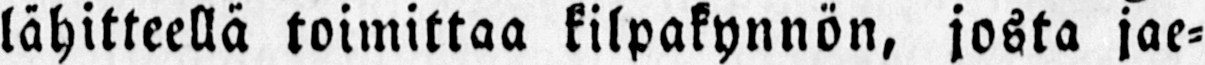lähitteellä toimittaa kilpakynnön, josta jae-
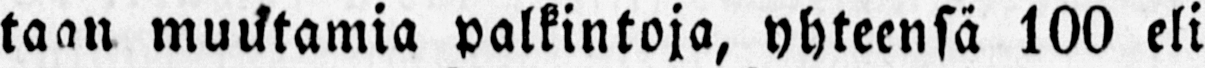taan muutamia palkintoja, yhteensä 100 eli
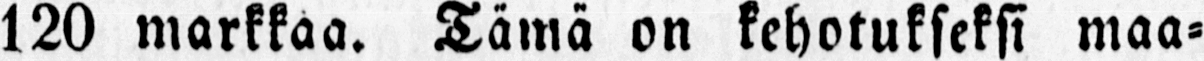120 markkaa. Tämä on kehotukseksi maa-
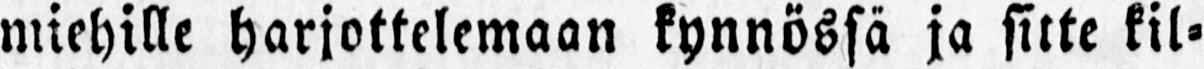miehille harjottelemaan kynnössä ja sitte kil-
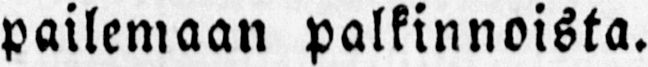pailemaan palkinnoista.
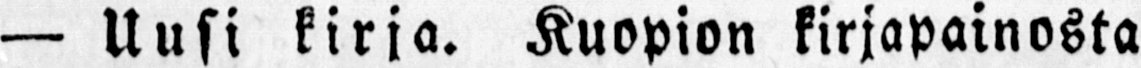— Uusi kirja. Kuopion kirjapainosta
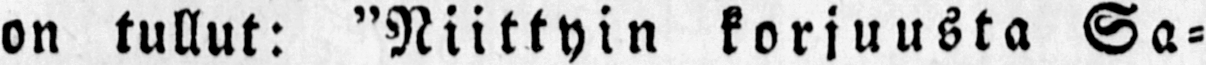on tullut: "Niittyin korjuusta Sa-
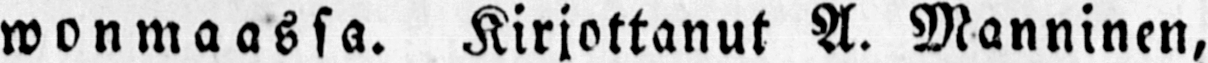won maassa. Kirjottanut A. Manninen,
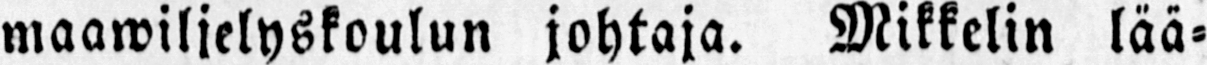maawiljelyskoulun johtaja. Mikkelin lää-
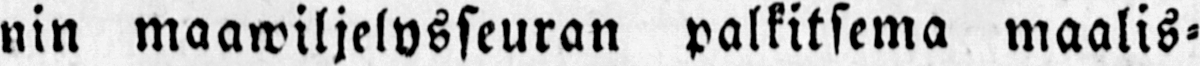nin maawiljelysseuran palkitsema maalis-
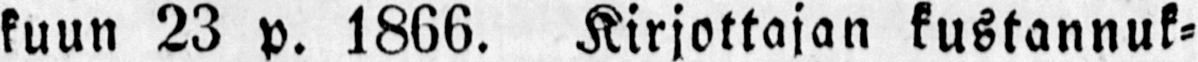kuun 23 p. 1866. Kirjottajan kustannuk-
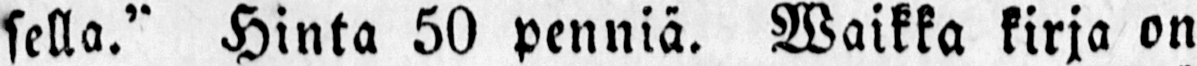sella." Hinta 50 penniä. Waikka kirja on
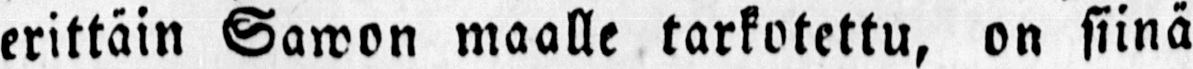erittäin Sawon maalle karkotettu, on siinä
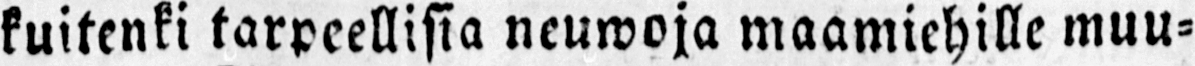kuitenki tarpeellisia neuwoja maamiehille muu-
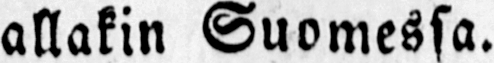allakin Suomessa.
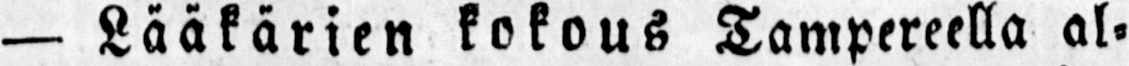— Lääkärien kokous Tampereella al-
